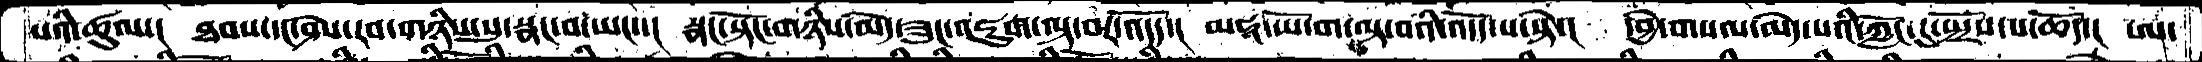པའི་ཚུལ་།  ཐབས་དང་ཤེས་རབ་གཉིས་སུ་སྣང་བ་ཡང་་།  སྣང་སྟོང་གཉིས་མེད་ཟུང་འཇུག་ལྟ་བར་འདོད་།  མཧཱ་ཡོ་ག་ལྟ་བའི་འདོད་པ་སྟེ་།  དབྱེ་གསལ་མེད་པའི་ཀློང་དུ་སྤྲོས་པ་ཆོད་།  ཨ་
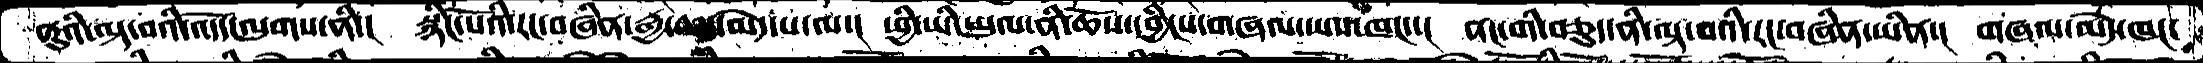ནུའི་ལྟ་བའི་འདོད་ལུགས་ནི་།  སྙིང་པོའི་རང་བཞིན་རྒྱ་ཆད་མེད་པ་ལ་།  ཕྱི་ཡི་ཡུལ་ནི་ཆོས་དབྱིངས་གཞལ་ཡས་ཁང་་།  ནང་གི་བཅུད་ནི་ལྟ་བའི་རང་བཞིན་ཡིན་།  གཞལ་མེད་ཁང་
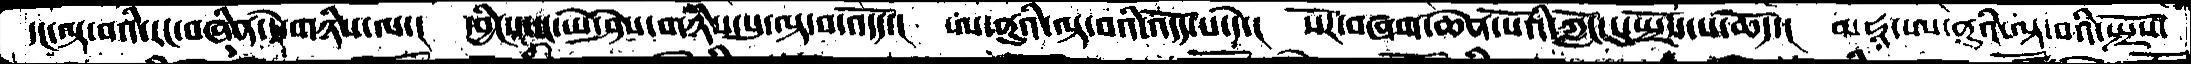དང་ལྟ་བའི་རང་བཞིན་དེ་གཉིས་ལ་།   དབྱིངས་དང་ཡེ་ཤེས་གཉིས་སུ་ལྟ་བ་འདོད་།  ཨ་ནུའི་ལྟ་བའི་འདོད་པ་དེ་།  སོར་བཞག་ཆེན་པོའི་ཀློང་དུ་སྤྲོས་པ་ཆོད་།  མཧཱ་ཨ་ནུའི་ལྟ་བའི་སྤྲོས་
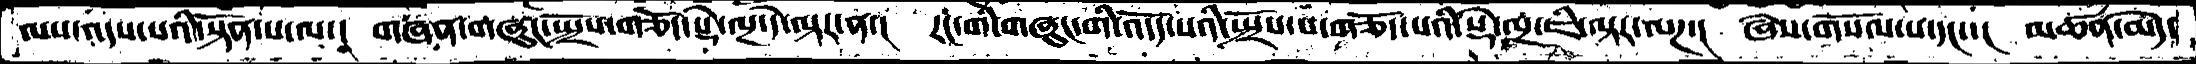ལས་འདས་པའི་སྟོན་པ་ལ་།  གཞན་གཞུང་སྤྲོས་གཅོད་སྡེ་ལྔ་དེ་ལྟར་ན་།  རང་གི་གཞུང་གི་འདོད་པའི་སྤྲོས་པ་གཅོད་པའི་སྡེ་ལྔ་ཇི་ལྟར་ལཌ་།  ཞེས་གསོལ་པ་དང་་།  མཚན་མེད་
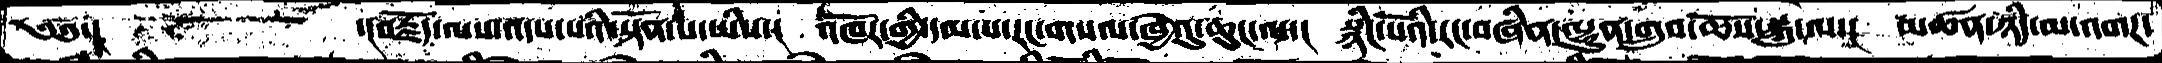༄༅་།       ་།་བརྗོད་ལས་འདས་པའི་སྟོན་པ་ཡིས་།  འཁོར་གྱི་དམ་པ་རང་གསལ་ཁྱེའུ་ཆུང་ལ་།  སྙིང་པོའི་རང་བཞིན་ལྷུན་གྲུབ་ཆོས་སྐུ་ལ་།  མཚན་ཉིད་མ་འགཌ་
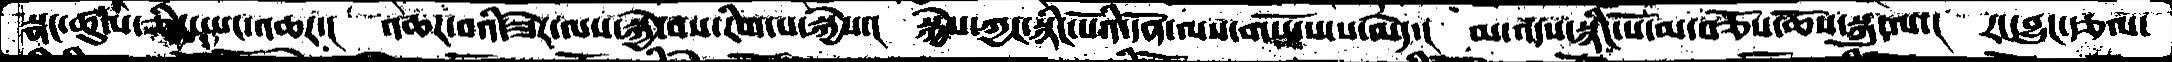སྣང་ཚུལ་ཅིར་ཡང་འཆར་།  འཆར་བའི་ཟེར་ལས་སྐྱེ་བས་རིག་པ་སྐྱེས་།  སྐྱེས་ཀྱང་སྙིང་པོའི་དོན་ལས་གཡོས་པ་མེད་།  མ་འདས་སྙིང་པོ་མ་བཅོས་ཆོས་སྐུ་ལ་།  རང་བྱུང་རྩལ་
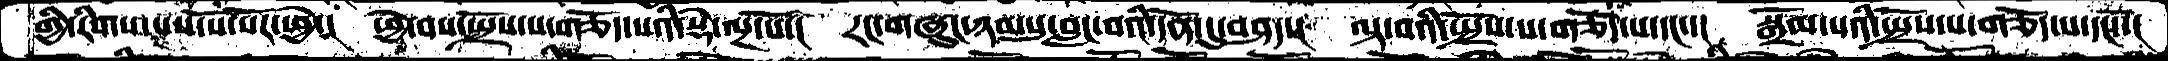གྱི་རིགས་པས་སོ་སོར་ཕྱེ་།  ཕྱེ་བས་སྤྲོས་པ་གཅོད་པའི་སྡེ་ལྔ་པོ་།  རང་གཞུང་ཉམསུ་བླང་བའི་དོན་དུ་བཤད་།  ལྟ་བའི་སྤྲོས་པ་གཅོད་པ་དང་་།  སྒྲོམ་པའི་སྤྲོས་པ་གཅོད་པ་དང་་།
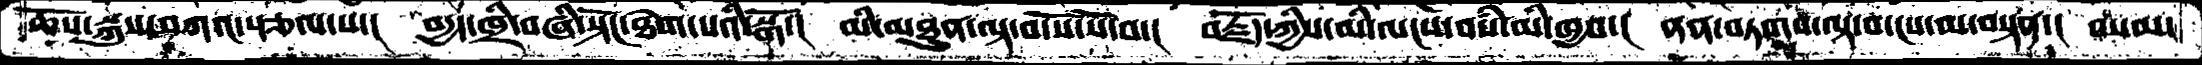ཆོས་སྐུས་བཀའ་རྩལ་པ་།  བདྱད་ཁྲི་བཞི་སྟོང་ཐེག་པའི་སྒོ་།   མི་མཐུན་ལྟ་བ་སོ་སོ་བ་།  བརྗོད་ཀྱིས་མི་ལངས་བསཾ་མི་ཁྱབ་།  ནན་བཏགས་ལྟ་བ་ངས་མ་བསྟན་།  བསམ་
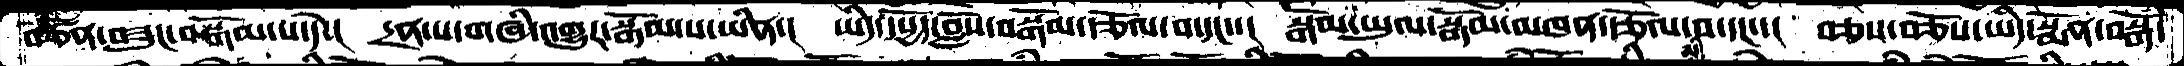བཙོན་བཟུང་བསྒོམ་པ་དེ་།  དྲན་པ་གཞི་འགྱུར་སྒོམ་པ་ཡིན་།  ཡིད་དཔྱོད་བློས་བསྒོམ་རྩོལ་བ་དང་་།  སྒོམ་ཡུལ་སྒོམ་མཁན་རྩོལ་བ་དང་་།  བཅས་བཅོས་ཡིད་སྨོན་བསྒོཾ་
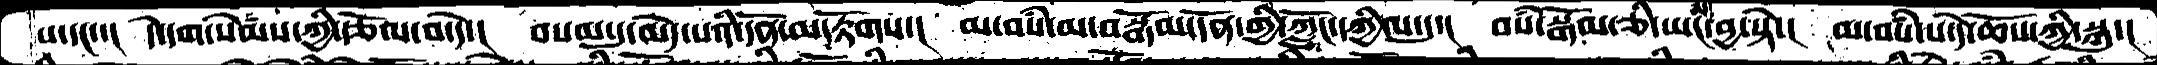པ་དང་་།  དེ་དག་སེམས་ཀྱི་རྩོལ་བ་དེ་།  བསམ་དུ་མེད་པའི་དོན་མ་རྟོགས་། མ་བསཾ་་མ་བསྒོམ་དོན་གྱི་ཀློང་དཀྱིལ་དུ་།  བསཾ་སྒོམ་ཅི་ཡང་བྱ་སྟེ་།  མ་བསཾ་པ་དེ་ཆོས་ཀྱི་སྐུ་།
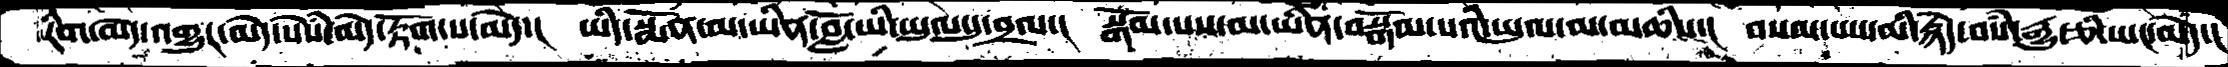རིག་མེད་འགྱུར་མེད་སེསཾ་མེད་རྟོག་པ་མེད་།  ཡིད་སྨོན་མ་ཡིན་བློ་ཡི་ཡུལ་དུ་བྲལ་།  སྒོམ་པས་མ་ཡིན་བསྒོམ་པའི་ཡུལ་མ་མཆིས་།  བསམ་པས་མི་རྙེད་བསཾ་རྒྱུ་ཅི་ཡང་མེད་།
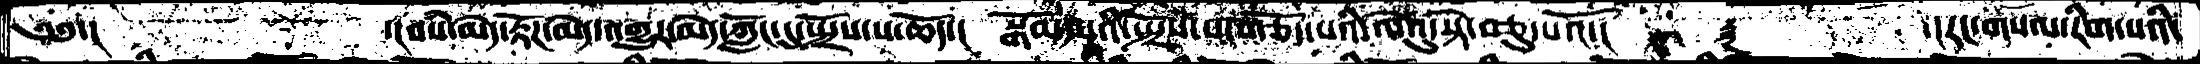༄༅་།          ་།བསཾ་མེད་རྟོཌ་མེད་འགྱུར་མེད་ཀློང་དུ་སྤྲོས་པ་ཆོད་།  སྒོམ་པའི་སྤྲོས་པ་གཅོད་པའི་ལེའུ་སྟེ་བཅུ་པའོ་།  ࿑    ་།རང་གསལ་རིག་པའི་
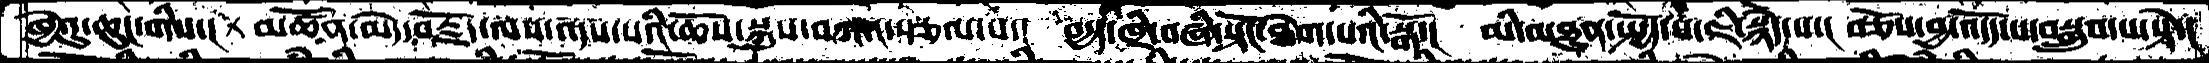ཁྱེའུ་ཆུང་གིས་། མཚོན་མེད་བརྗོད་ལས་འདས་པའི་ཆོས་སྐུས་བཀའ་སྩལ་པ་། བདྱད་ཁྲི་བཞི་སྟོང་ཐེག་པའི་སྒོ་། མི་མཐུན་སྤྱོད་པ་ཇི་སྙེད་པ་། བཅོས་བྱ་འདོད་པ་བསྒྲུབ་པ་སྟེ་།
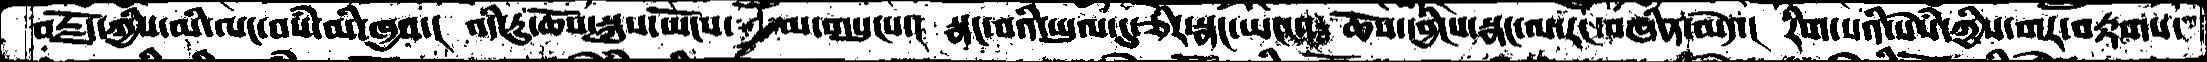བརྗོད་ཀྱིས་མི་ལང་བསཾ་མི་ཁྱབ་།  འདི་རུ་ཆོས་སྐུས་ཡོངས་   མ་གསུངས་།  སྣང་བའི་ཡུལ་དུ་ཅིར་སྣང་ཡང་་།  ཆོས་དབྱིངས་སྣང་ལ་རང་བཞིན་མེད་།  རིག་པའི་སེཾས་ཀྱིས་གར་བརྟགས་
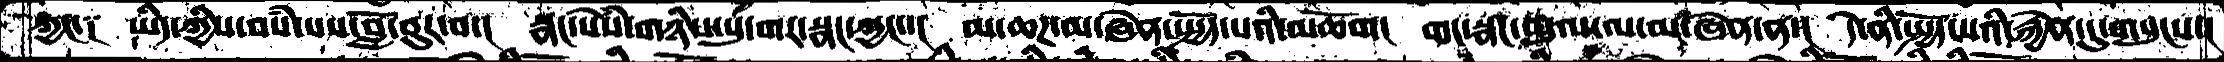ཀྱང་༑  ཡིད་ཀྱིས་བསཾ་པས་བློ་བུར་བ་།  སྣང་སེཾས་གཉིས་སུ་གར་སྣང་ཀྱང་་།  མ་ཆཌ་མ་ཞེན་སྤྱོད་པའི་མཆོག།  གང་སྣང་ཡུལ་ལ་མ་ཞེན་ན་།  དེ་ནི་སྤྱོད་པའི་རྐྱེན་དུ་གསུངས་།
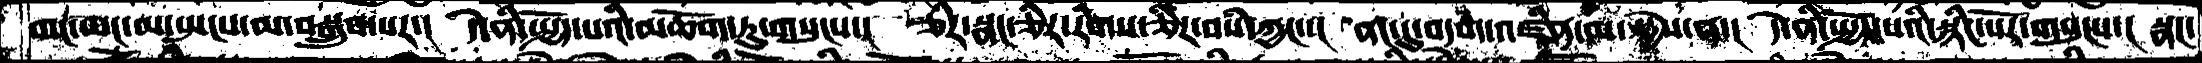གང་ཡང་མ་སྤངས་མ་བསྒྲུབ་པར་།  དེ་ནི་སྤྱོད་པའི་མཆོག་ཏུ་གསུངས་་།  ཅིར་སྣང་ཅིར་རིགས་ཅིར་བསཾ་ཀྱང་་།  ནང་དུ་བདག་འཛིན་མ་སྐྱེས་ན་། དེ་ནི་སྤྱོད་པའི་སྙིང་པོར་གསུངས་། སྣང་
